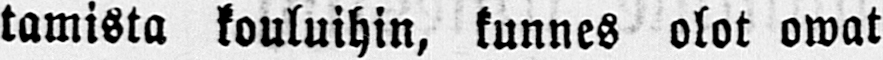tamista kouluihin, kunnes olot owat
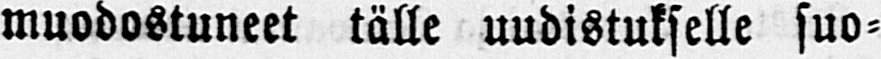muodostuneet tälle uudistukselle suo-
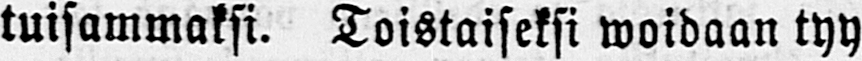tuisammaksi. Toistaiseksi woidaan tyy-
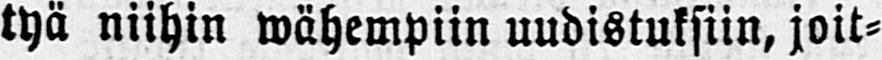tyä niihin wähempiin uudistuksiin, joit-
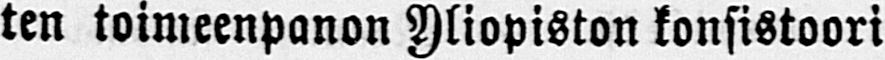ten toimeenpanon Yliopiston konsistoori
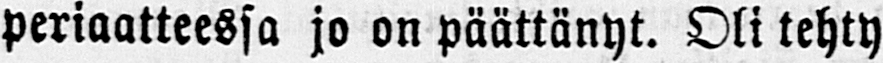periaatteessa jo on päättänyt. Oli tehty
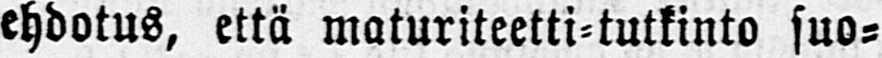ehdotus, että maturiteetti-tutkinto suo-
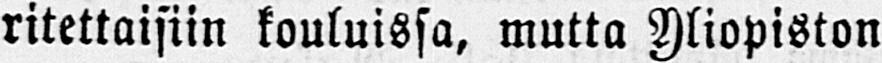ritettaisiin kouluissa, mutta Yliopiston
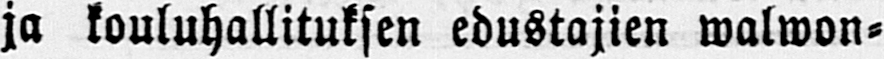ja kouluhallituksen edustajien walwon-
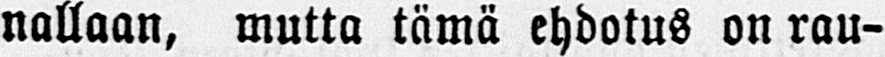nallaan, mutta tämä ehdotus on rau-
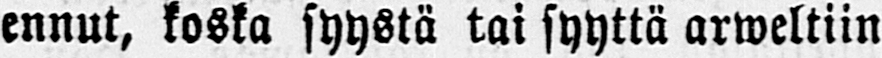ennut, koska syystä tai syyttä arweltiin
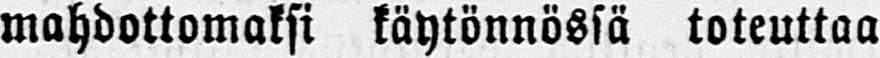mahdottomaksi käytönnössä toteuttaa
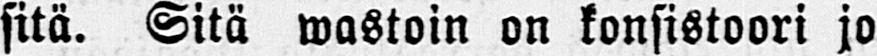sitä. Sitä wastoin on konsistoori jo
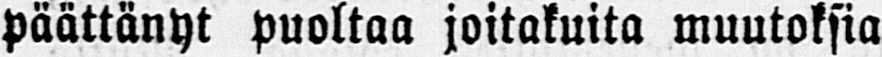päättänyt puoltaa joitakuita muutoksia
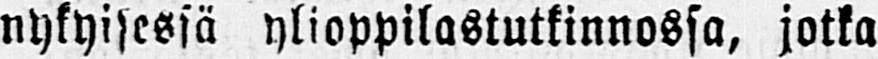nykyisessä ylioppilastutkinnossa, jotka
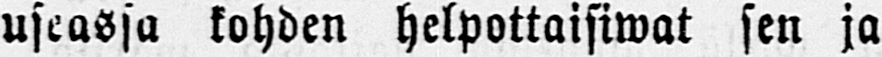useassa kohden helpottaisiwat sen ja
